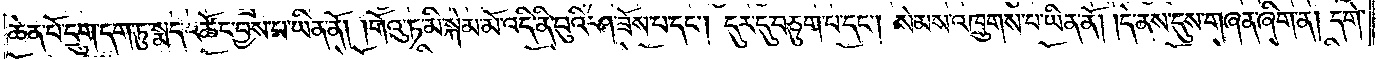ཆེན་པོ་དྲུག་དག་ཏུ་སྨད་འཚོང་བྱས་པ་ཡིན་ནོ། །གོའུ་ཏ་མི་སྐེམ་མོ་འདི་ནི་བུའི་ཤ་ཟོས་པ་དང༌། དུར་དུ་བཅུག་པ་དང༌། སེམས་འཁྲུགས་པ་ཡིན་ནོ། །དེ་ནས་དུས་གཞན་ཞིག་ན། དགེ་
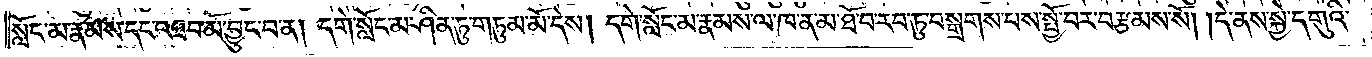སློང་མ་རྣམས་དང་འཐབ་མོ་བྱུང་བ་ན། དགེ་སློང་མ་ཤིན་ཏུ་གཏུམ་མོ་དེས། དགེ་སློང་མ་རྣམས་ལ་ཁ་ན་མ་ཐོ་བ་རབ་ཏུ་བསྒྲགས་པས་སྤྱོ་བར་བརྩམས་སོ། །དེ་ནས་སྐྱེ་དགུའི་
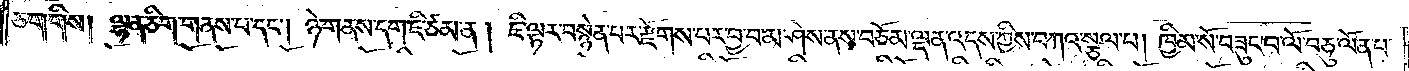ཅག་གིས། ལྷན་ཅིག་གནས་པ་དང༌། ཉེ་གནས་དག་ཇི་ཙམ་ན། ཇི་ལྟར་བསྙེན་པར་རྫོགས་པར་བྱ་བ་མ་ཤེས་ནས་བཅོམ་ལྡན་འདས་ཀྱིས་བཀའ་སྩལ་པ། ཁྱིམ་སོ་བཟུང་བ་ལོ་བཅུ་ལོན་པ་
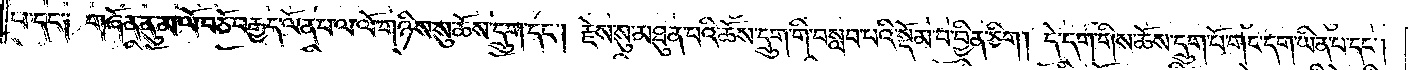པ་དང༌། གཞོན་ནུ་མ་ལོ་བཅོ་བརྒྱད་ལོན་པ་ལ་ལོ་གཉིས་སུ་ཆོས་དྲུག་དང༌། རྗེས་སུ་མཐུན་པའི་ཆོས་དྲུག་གི་བསླབ་པའི་སྡོམ་པ་བྱིན་ཅིག། དེ་དག་གིས་ཆོས་དྲུག་པོ་གང་དག་ཡིན་པ་དང༌།
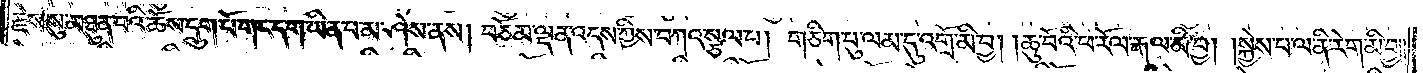རྗེས་སུ་མཐུན་པའི་ཆོས་དྲུག་པོ་གང་དག་ཡིན་པ་མ་ཤེས་ནས། བཅོམ་ལྡན་འདས་ཀྱིས་བཀའ་སྩལ་པ། གཅིག་པུ་ལམ་དུ་འགྲོ་མི་བྱ། །ཆུ་བོའི་ཕ་རོལ་རྒལ་མི་བྱ། །སྐྱེས་པ་ལ་ནི་རེག་མི་བྱ༎
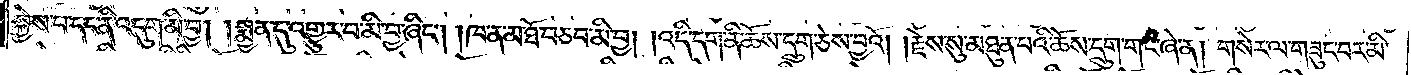སྐྱེས་པ་དང་ནི་འདུག་མི་བྱ། །སྨྱན་དུ་འགྱུར་བ་མི་བྱ་ཞིང༌། །ཁ་ན་མ་ཐོ་བཅབ་མི་བྱ། །འདི་དག་ནི་ཆོས་དྲུག་ཅེས་བྱའོ། །རྗེས་སུ་མཐུན་པའི་ཆོས་དྲུག་གང་ཞེ་ན། གསེར་ལ་གཟུང་བར་མི་
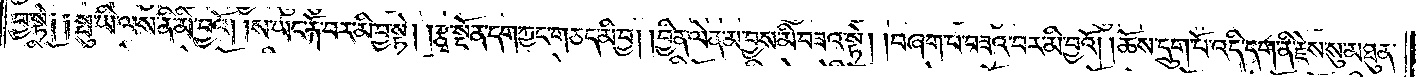བྱ་སྟེ༑ ༑སྤུ་ཡི་ལས་ནི་མི་བྱའོ། །ས་ཡང་རྐོ་བར་མི་བྱ་སྟེ། །རྩྭ་སྔོན་དག་ཀྱང་གཅད་མི་བྱ། །བྱིན་ལེན་མ་བྱས་མི་བཟའ་སྟེ། །བཞག་པ་བཟའ་བར་མི་བྱའོ། །ཆོས་དྲུག་པོ་འདི་དག་ནི་རྗེས་སུ་མཐུན་
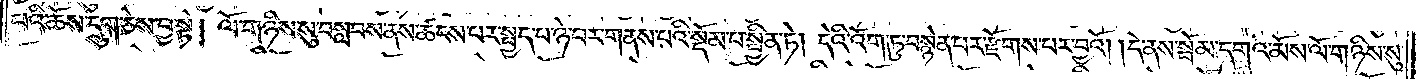པའི་ཆོས་དྲུག་ཅེས་བྱ་སྟེ། ལོ་གཉིས་སུ་བསླབས་ནས་ཚངས་པར་སྤྱད་པ་ཉེ་བར་གནས་པའི་སྡོམ་པ་སྦྱིན་ཏེ། དེའི་འོག་ཏུ་བསྙེན་པར་རྫོགས་པར་བྱའོ། །དེ་ནས་སྦོམ་དགའ་མོས་ལོ་གཉིས་སུ་
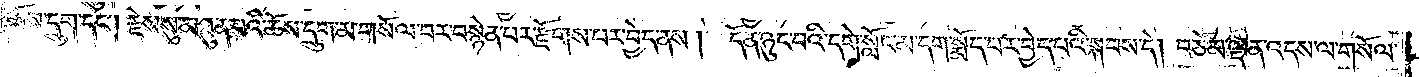ཆོས་དྲུག་དང༌། རྗེས་སུ་མཐུན་པའི་ཆོས་དྲུག་མ་གསོལ་བར་བསྙེན་པར་རྫོགས་པར་བྱེད་ནས། དོན་ཉུང་བའི་དགེ་སློང་མ་དག་སྨོད་པར་བྱེད་པའི་སྐབས་དེ། བཅོམ་ལྡན་འདས་ལ་གསོལ་
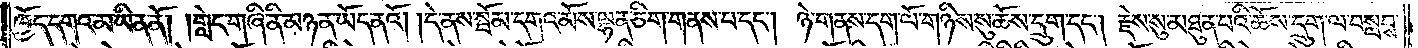ཁྱོད་དགའ་མ་ཡིན་ནོ། །གླེང་གཞི་ནི་མཉན་ཡོད་ནའོ། །དེ་ནས་སྦོམ་དགའ་མོས་ལྷན་ཅིག་གནས་པ་དང༌། ཉེ་གནས་དག་ལོ་གཉིས་སུ་ཆོས་དྲུག་དང༌། རྗེས་སུ་མཐུན་པའི་ཆོས་དྲུག་ལ་བསླབས་
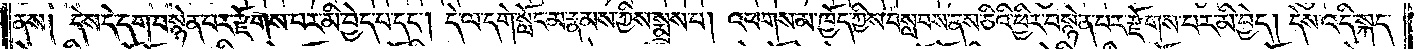ནས། དེས་དེ་དག་བསྙེན་པར་རྫོགས་པར་མི་བྱེད་པ་དང༌། དེ་ལ་དགེ་སློང་མ་རྣམས་ཀྱིས་སྨྲས་པ། འཕགས་མ་ཁྱོད་ཀྱིས་བསླབས་ནས་ཅིའི་ཕྱིར་བསྙེན་པར་རྫོགས་པར་མི་བྱེད། དེས་འདི་སྐད་
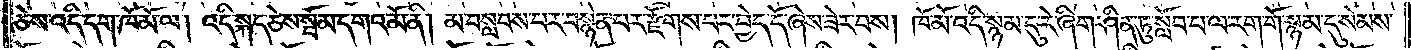ཅེས་འདི་དག་ཁོ་མོ་ལ། འདི་སྐད་ཅེས་སྦོམ་དགའ་མོ་ནི། མ་བསླབས་པར་བསྙེན་པར་རྫོགས་པར་བྱེད་དོ་ཞེས་ཟེར་བས། ཁོ་མོ་འདི་སྙམ་དུ་རེ་ཞིག་ཤིན་ཏུ་སློབ་པ་ལ་རག་གོ་སྙམ་དུ་སེམས་
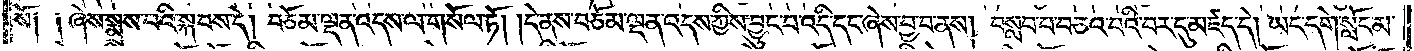སོ༑ ༑ཞེས་སྨྲས་པའི་སྐབས་དེ། བཅོམ་ལྡན་འདས་ལ་གསོལ་ཏོ། །དེ་ནས་བཅོམ་ལྡན་འདས་ཀྱིས་བྱུང་བ་འདི་དང་ཞེས་བྱ་བ་ནས། བསླབ་པ་བཅའ་བའི་བར་དུ་མཛད་དེ། ཡང་དགེ་སློང་མ་
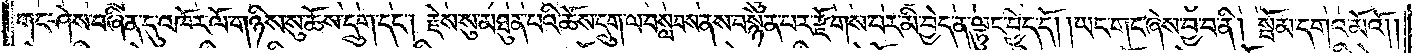གང་ཤེས་བཞིན་དུ་འཁོར་ལོ་གཉིས་སུ་ཆོས་དྲུག་དང༌། རྗེས་སུ་མཐུན་པའི་ཆོས་དྲུག་ལ་བསླབས་ནས་བསྙེན་པར་རྫོགས་པར་མི་བྱེད་ན་ལྟུང་བྱེད་དོ། །ཡང་གང་ཞེས་བྱ་བ་ནི། སྦོམ་དགའ་མོའོ། །
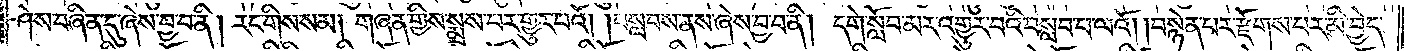ཤེས་བཞིན་དུ་ཞེས་བྱ་བ་ནི། རང་གིས་སམ། གཞན་གྱིས་སྨྲས་པར་གྱུར་པའོ། །བསླབས་ནས་ཞེས་བྱ་བ་ནི། དགེ་སློབ་མར་འགྱུར་བའི་བསླབ་པ་ལའོ། །བསྙེན་པར་རྫོགས་པར་མི་བྱེད་
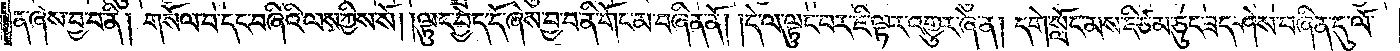ན་ཞེས་བྱ་བ་ནི། གསོལ་པ་དང་བཞིའི་ལས་ཀྱིས་སོ། །ལྟུང་བྱེད་དོ་ཞེས་བྱ་བ་ནི་གོང་མ་བཞིན་ནོ། །དེ་ལ་ལྟུང་བར་ཇི་ལྟར་འགྱུར་ཞེ་ན། དགེ་སློང་མས་ཇི་ཙམ་ཅུང་ཟད་ཤེས་བཞིན་དུ་ལོ་
